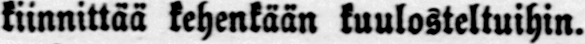kiinnittää kehenkään kuulosteltuihin.
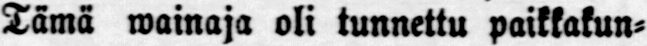Tämä wainaja oli tunnettu paikkakun-
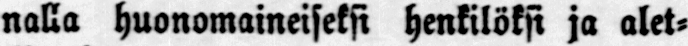nalla huonomaineiseksi henkilöksi ja alet-
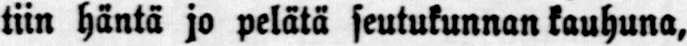tiin häntä jo pelätä seutukunnan kauhuna,
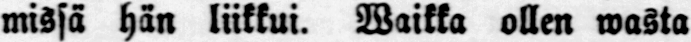missä hän liikkui. Waikka ollen wasta
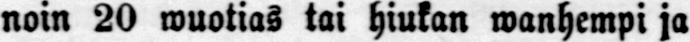noin 20 wuotias tai hiukan wanhempi ja
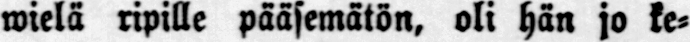wielä ripille pääsemätön, oli hän jo ke-
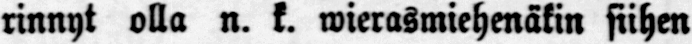rinnyt olla n. k. wierasmiehenäkin siihen
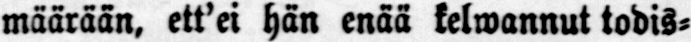määrään, ett'ei hän enää kelwannut todis-
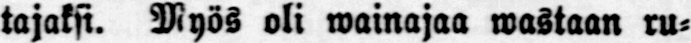tajaksi. Myös oli wainajaa wastaan ru-
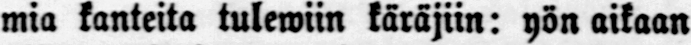mia kanteita tulewiin käräjiin: yön aikaan
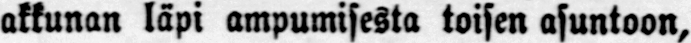akkunan läpi ampumisesta toisen asuntoon,
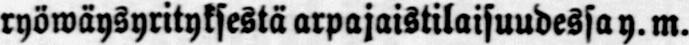ryöwäysyrityksestä arpajaistilaisuudessa y. m.
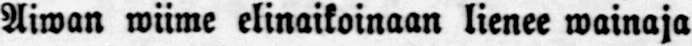Aiwan wiime elinaikoinaan lienee wainaja
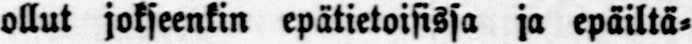ollut jokseenkin epätietoisissa ja epäiltä-
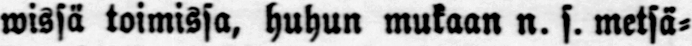wissä toimissa, huhun mukaan n. s. metsä-
